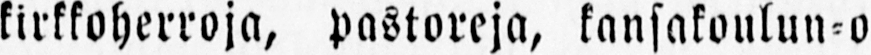kirkkoherroja, pastoreja, kansakoulun-o-
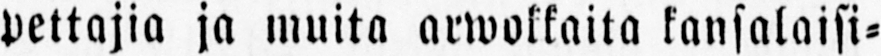pettajia ja muita arwokkaita kansalaisi-
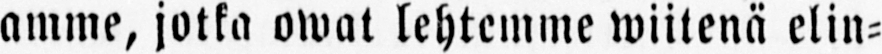amme, jotka owat lehtemme wiitenä elin-
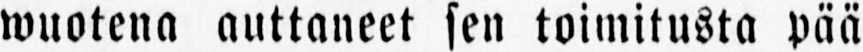wuotena auttaneet sen toimitusta pää
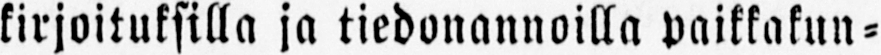kirjoituksilla ja tiedonannoilla paikkakun-
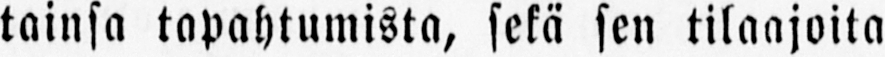tainsa tapahtumista, sekä sen tilaajoita
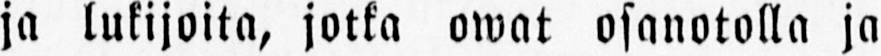ja lukijoita, jotka owat osanotolla ja
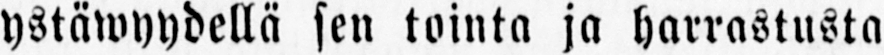ystäwyydellä sen tointa ja harrastusta
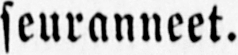seuranneet.
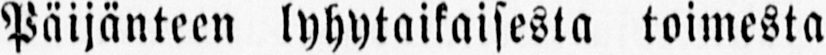Päijänteen lyhytaikaisesta toimesta
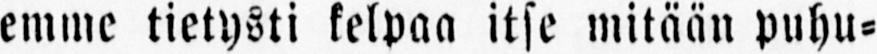emme tietysti kelpoa itse mitään puhu-
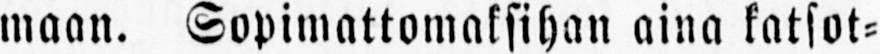maan. Sopimattomaksihan aina katsot-
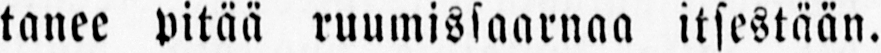tanee pitää ruumissaarnaa itsestään.
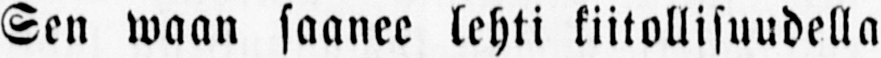Sen waan saanee lehti kiitollisuudella
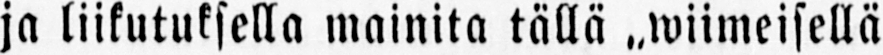ja liikutuksella mainita tällä ˶wiimeisellä
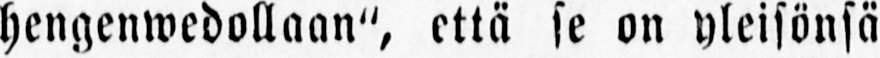hengenwedollaan", että se on yleisönsä
